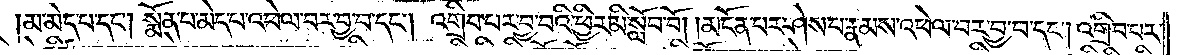མ་མེད་པ་དང༌། སྨོན་པ་མེད་པ་འཕེལ་བར་བྱ་བ་དང༌། འགྲིབ་པར་བྱ་བའི་ཕྱིར་མི་སློབ་བོ། །མངོན་པར་ཤེས་པ་རྣམས་འཕེལ་བར་བྱ་བ་དང༌། འགྲིབ་པར་
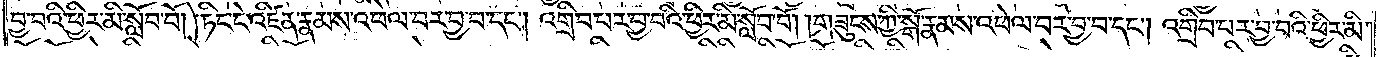བྱ་བའི་ཕྱིར་མི་སློབ་བོ། །ཏིང་ངེ་འཛིན་རྣམས་འཕེལ་བར་བྱ་བ་དང༌། འགྲིབ་པར་བྱ་བའི་ཕྱིར་མི་སློབ་བོ། །གཟུངས་ཀྱི་སྒོ་རྣམས་འཕེལ་བར་བྱ་བ་དང༌། འགྲིབ་པར་བྱ་བའི་ཕྱིར་མི་
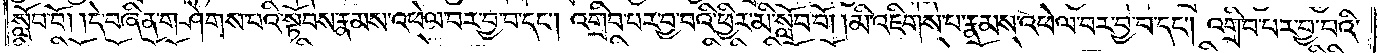སློབ་བོ། །དེ་བཞིན་གཤེགས་པའི་སྟོབས་རྣམས་འཕེལ་བར་བྱ་བ་དང༌། འགྲིབ་པར་བྱ་བའི་ཕྱིར་མི་སློབ་བོ། །མི་འཇིགས་པ་རྣམས་འཕེལ་བར་བྱ་བ་དང༌། འགྲིབ་པར་བྱ་བའི་
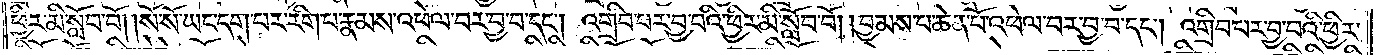ཕྱིར་མི་སློབ་བོ། །སོ་སོ་ཡང་དག་པར་རིག་པ་རྣམས་འཕེལ་བར་བྱ་བ་དང༌། འགྲིབ་པར་བྱ་བའི་ཕྱིར་མི་སློབ་བོ། །བྱམས་པ་ཆེན་པོ་འཕེལ་བར་བྱ་བ་དང༌། འགྲིབ་པར་བྱ་བའི་ཕྱིར་
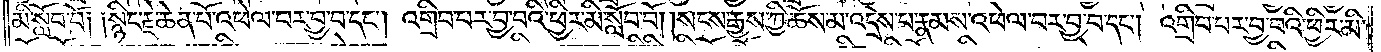མི་སློབ་བོ༑ ༑སྙིང་རྗེ་ཆེན་པོ་འཕེལ་བར་བྱ་བ་དང༌། འགྲིབ་པར་བྱ་བའི་ཕྱིར་མི་སློབ་བོ། །སངས་རྒྱས་ཀྱི་ཆོས་མ་འདྲེས་པ་རྣམས་འཕེལ་བར་བྱ་བ་དང༌། འགྲིབ་པར་བྱ་བའི་ཕྱིར་མི་
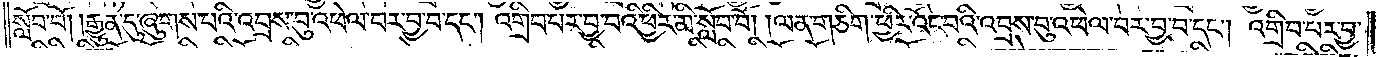སློབ་བོ། །རྒྱུན་དུ་ཞུགས་པའི་འབྲས་བུ་འཕེལ་བར་བྱ་བ་དང༌། འགྲིབ་པར་བྱ་བའི་ཕྱིར་མི་སློབ་བོ། །ལན་ཅིག་ཕྱིར་འོང་བའི་འབྲས་བུ་འཕེལ་བར་བྱ་བ་དང༌། འགྲིབ་པར་བྱ་
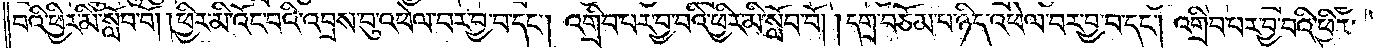བའི་ཕྱིར་མི་སློབ་བོ། །ཕྱིར་མི་འོང་བའི་འབྲས་བུ་འཕེལ་བར་བྱ་བ་དང༌། འགྲིབ་པར་བྱ་བའི་ཕྱིར་མི་སློབ་བོ། །དགྲ་བཅོམ་པ་ཉིད་འཕེལ་བར་བྱ་བ་དང༌། འགྲིབ་པར་བྱ་བའི་ཕྱིར་
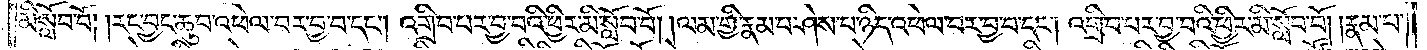མི་སློབ་བོ། །རང་བྱང་ཆུབ་འཕེལ་བར་བྱ་བ་དང༌། འགྲིབ་པར་བྱ་བའི་ཕྱིར་མི་སློབ་བོ། །ལམ་གྱི་རྣམ་པ་ཤེས་པ་ཉིད་འཕེལ་བར་བྱ་བ་དང༌། འགྲིབ་པར་བྱ་བའི་ཕྱིར་མི་སློབ་བོ། །རྣམ་པ་
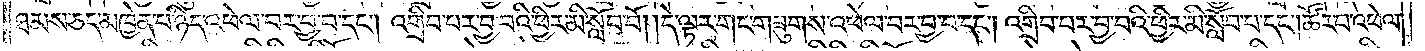ཐམས་ཅད་མཁྱེན་པ་ཉིད་འཕེལ་བར་བྱ་བ་དང༌། འགྲིབ་པར་བྱ་བའི་ཕྱིར་མི་སློབ་བོ། །དེ་ལྟར་གང་གཟུགས་འཕེལ་བར་བྱ་བ་དང༌། འགྲིབ་པར་བྱ་བའི་ཕྱིར་མི་སློབ་པ་དང༌། ཚོར་བ་འཕེལ་
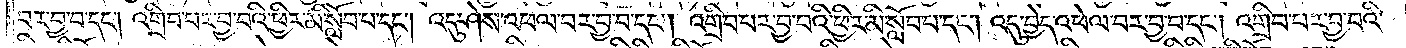བར་བྱ་བ་དང༌། འགྲིབ་པར་བྱ་བའི་ཕྱིར་མི་སློབ་པ་དང༌། འདུ་ཤེས་འཕེལ་བར་བྱ་བ་དང༌། འགྲིབ་པར་བྱ་བའི་ཕྱིར་མི་སློབ་པ་དང༌། འདུ་བྱེད་འཕེལ་བར་བྱ་བ་དང༌། འགྲིབ་པར་བྱ་བའི་
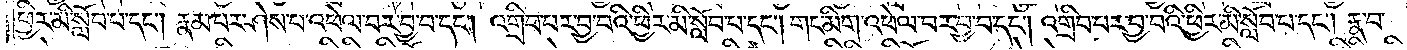ཕྱིར་མི་སློབ་པ་དང༌། རྣམ་པར་ཤེས་པ་འཕེལ་བར་བྱ་བ་དང༌། འགྲིབ་པར་བྱ་བའི་ཕྱིར་མི་སློབ་པ་དང༌། གང་མིག་འཕེལ་བར་བྱ་བ་དང༌། འགྲིབ་པར་བྱ་བའི་ཕྱིར་མི་སློབ་པ་དང༌། རྣ་བ་
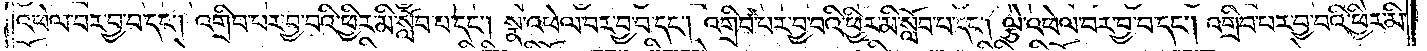འཕེལ་བར་བྱ་བ་དང༌། འགྲིབ་པར་བྱ་བའི་ཕྱིར་མི་སློབ་པ་དང༌། སྣ་འཕེལ་བར་བྱ་བ་དང༌། འགྲིབ་པར་བྱ་བའི་ཕྱིར་མི་སློབ་པ་དང༌། ལྕེ་འཕེལ་བར་བྱ་བ་དང༌། འགྲིབ་པར་བྱ་བའི་ཕྱིར་མི་
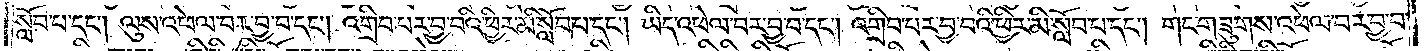སློབ་པ་དང༌། ལུས་འཕེལ་བར་བྱ་བ་དང༌། འགྲིབ་པར་བྱ་བའི་ཕྱིར་མི་སློབ་པ་དང༌། ཡིད་འཕེལ་བར་བྱ་བ་དང༌། འགྲིབ་པར་བྱ་བའི་ཕྱིར་མི་སློབ་པ་དང༌། གང་གཟུགས་འཕེལ་བར་བྱ་བ་
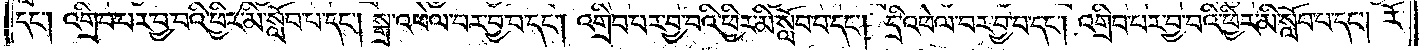དང༌། འགྲིབ་པར་བྱ་བའི་ཕྱིར་མི་སློབ་པ་དང༌། སྒྲ་འཕེལ་བར་བྱ་བ་དང༌། འགྲིབ་པར་བྱ་བའི་ཕྱིར་མི་སློབ་པ་དང༌། དྲི་འཕེལ་བར་བྱ་བ་དང༌། འགྲིབ་པར་བྱ་བའི་ཕྱིར་མི་སློབ་པ་དང༌། རོ་
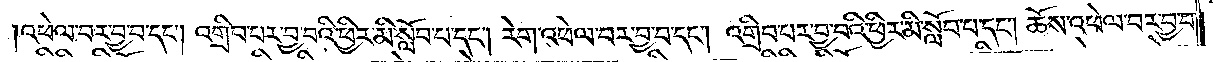འཕེལ་བར་བྱ་བ་དང༌། འགྲིབ་པར་བྱ་བའི་ཕྱིར་མི་སློབ་པ་དང༌། རེག་འཕེལ་བར་བྱ་བ་དང༌། འགྲིབ་པར་བྱ་བའི་ཕྱིར་མི་སློབ་པ་དང༌། ཆོས་འཕེལ་བར་བྱ་བ་
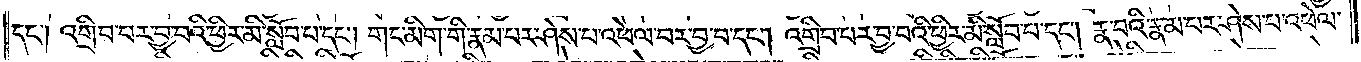དང༌། འགྲིབ་པར་བྱ་བའི་ཕྱིར་མི་སློབ་པ་དང༌། གང་མིག་གི་རྣམ་པར་ཤེས་པ་འཕེལ་བར་བྱ་བ་དང༌། འགྲིབ་པར་བྱ་བའི་ཕྱིར་མི་སློབ་པ་དང༌། རྣ་བའི་རྣམ་པར་ཤེས་པ་འཕེལ་
